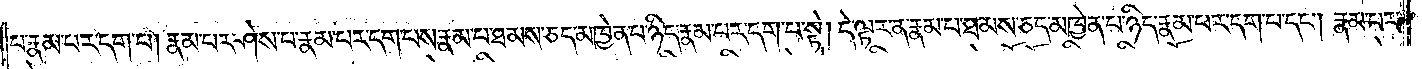པ་རྣམ་པར་དག་པ། རྣམ་པར་ཤེས་པ་རྣམ་པར་དག་པས་རྣམ་པ་ཐམས་ཅད་མཁྱེན་པ་ཉིད་རྣམ་པར་དག་པ་སྟེ། དེ་ལྟར་ན་རྣམ་པ་ཐམས་ཅད་མཁྱེན་པ་ཉིད་རྣམ་པར་དག་པ་དང༌། རྣམ་པར་
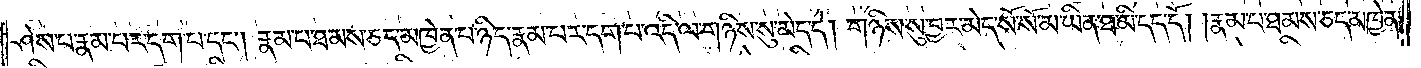ཤེས་པ་རྣམ་པར་དག་པ་དང༌། རྣམ་པ་ཐམས་ཅད་མཁྱེན་པ་ཉིད་རྣམ་པར་དག་པ་འདི་ལ་གཉིས་སུ་མེད་དེ། གཉིས་སུ་བྱར་མེད་སོ་སོ་མ་ཡིན་ཐ་མི་དད་དོ། །རྣམ་པ་ཐམས་ཅད་མཁྱེན་
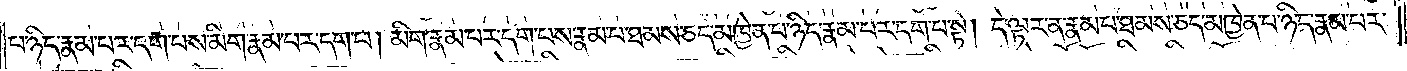པ་ཉིད་རྣམ་པར་དག་པས་མིག་རྣམ་པར་དག་པ། མིག་རྣམ་པར་དག་པས་རྣམ་པ་ཐམས་ཅད་མཁྱེན་པ་ཉིད་རྣམ་པར་དག་པ་སྟེ། དེ་ལྟར་ན་རྣམ་པ་ཐམས་ཅད་མཁྱེན་པ་ཉིད་རྣམ་པར་
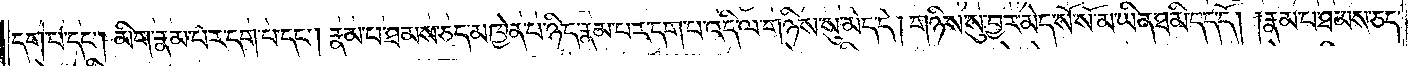དག་པ་དང༌། མིག་རྣམ་པར་དག་པ་དང༌། རྣམ་པ་ཐམས་ཅད་མཁྱེན་པ་ཉིད་རྣམ་པར་དག་པ་འདི་ལ་གཉིས་སུ་མེད་དེ། གཉིས་སུ་བྱར་མེད་སོ་སོ་མ་ཡིན་ཐ་མི་དད་དོ། །རྣམ་པ་ཐམས་ཅད་
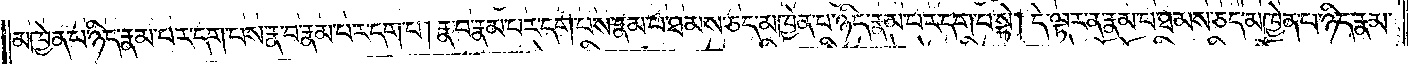མཁྱེན་པ་ཉིད་རྣམ་པར་དག་པས་རྣ་བ་རྣམ་པར་དག་པ། རྣ་བ་རྣམ་པར་དག་པས་རྣམ་པ་ཐམས་ཅད་མཁྱེན་པ་ཉིད་རྣམ་པར་དག་པ་སྟེ། དེ་ལྟར་ན་རྣམ་པ་ཐམས་ཅད་མཁྱེན་པ་ཉིད་རྣམ་
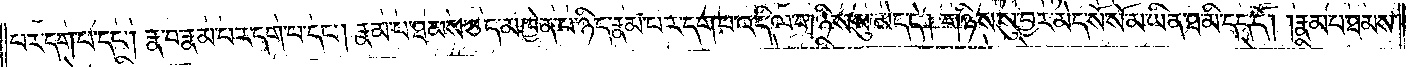པར་དག་པ་དང༌། རྣ་བ་རྣམ་པར་དག་པ་དང༌། རྣམ་པ་ཐམས་ཅད་མཁྱེན་པ་ཉིད་རྣམ་པར་དག་པ་འདི་ལ་གཉིས་སུ་མེད་དེ། གཉིས་སུ་བྱར་མེད་སོ་སོ་མ་ཡིན་ཐ་མི་དད་དོ། །རྣམ་པ་ཐམས་
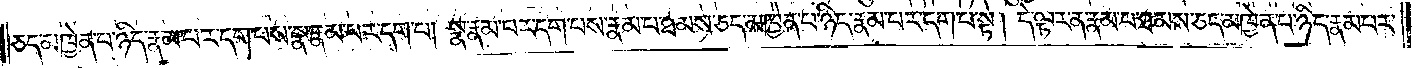ཅད་མཁྱེན་པ་ཉིད་རྣམ་པར་དག་པས་སྣ་རྣམ་པར་དག་པ། སྣ་རྣམ་པར་དག་པས་རྣམ་པ་ཐམས་ཅད་མཁྱེན་པ་ཉིད་རྣམ་པར་དག་པ་སྟེ། དེ་ལྟར་ན་རྣམ་པ་ཐམས་ཅད་མཁྱེན་པ་ཉིད་རྣམ་པར་
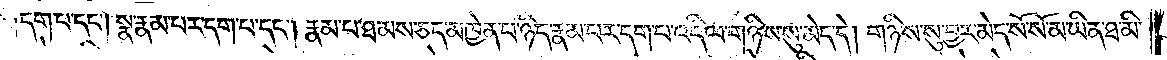དག་པ་དང༌། སྣ་རྣམ་པར་དག་པ་དང༌། རྣམ་པ་ཐམས་ཅད་མཁྱེན་པ་ཉིད་རྣམ་པར་དག་པ་འདི་ལ་གཉིས་སུ་མེད་དེ། གཉིས་སུ་བྱར་མེད་སོ་སོ་མ་ཡིན་ཐ་མི་
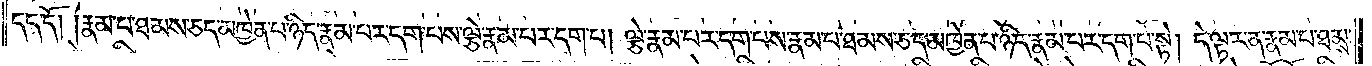དད་དོ། །རྣམ་པ་ཐམས་ཅད་མཁྱེན་པ་ཉིད་རྣམ་པར་དག་པས་ལྕེ་རྣམ་པར་དག་པ། ལྕེ་རྣམ་པར་དག་པས་རྣམ་པ་ཐམས་ཅད་མཁྱེན་པ་ཉིད་རྣམ་པར་དག་པ་སྟེ། དེ་ལྟར་ན་རྣམ་པ་ཐམས་
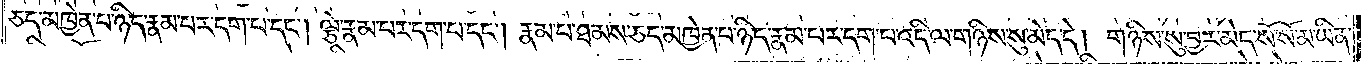ཅད་མཁྱེན་པ་ཉིད་རྣམ་པར་དག་པ་དང༌། ལྕེ་རྣམ་པར་དག་པ་དང༌། རྣམ་པ་ཐམས་ཅད་མཁྱེན་པ་ཉིད་རྣམ་པར་དག་པ་འདི་ལ་གཉིས་སུ་མེད་དེ། གཉིས་སུ་བྱར་མེད་སོ་སོ་མ་ཡིན་
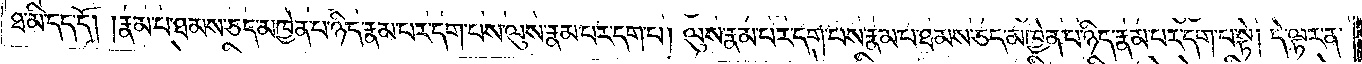ཐ་མི་དད་དོ། །རྣམ་པ་ཐམས་ཅད་མཁྱེན་པ་ཉིད་རྣམ་པར་དག་པས་ལུས་རྣམ་པར་དག་པ། ལུས་རྣམ་པར་དག་པས་རྣམ་པ་ཐམས་ཅད་མཁྱེན་པ་ཉིད་རྣམ་པར་དག་པ་སྟེ། དེ་ལྟར་ན་
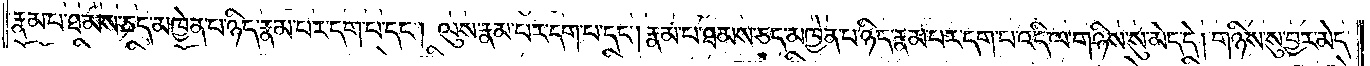རྣམ་པ་ཐམས་ཅད་མཁྱེན་པ་ཉིད་རྣམ་པར་དག་པ་དང༌། ལུས་རྣམ་པར་དག་པ་དང༌། རྣམ་པ་ཐམས་ཅད་མཁྱེན་པ་ཉིད་རྣམ་པར་དག་པ་འདི་ལ་གཉིས་སུ་མེད་དེ། གཉིས་སུ་བྱར་མེད་
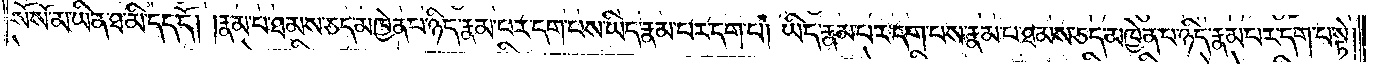སོ་སོ་མ་ཡིན་ཐ་མི་དད་དོ། །རྣམ་པ་ཐམས་ཅད་མཁྱེན་པ་ཉིད་རྣམ་པར་དག་པས་ཡིད་རྣམ་པར་དག་པ། ཡིད་རྣམ་པར་དག་པས་རྣམ་པ་ཐམས་ཅད་མཁྱེན་པ་ཉིད་རྣམ་པར་དག་པ་སྟེ།
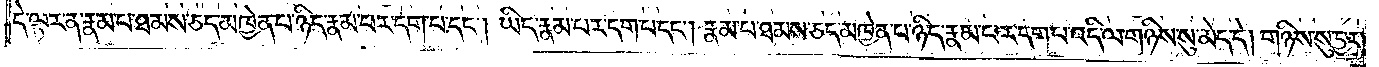དེ་ལྟར་ན་རྣམ་པ་ཐམས་ཅད་མཁྱེན་པ་ཉིད་རྣམ་པར་དག་པ་དང༌། ཡིད་རྣམ་པར་དག་པ་དང༌། རྣམ་པ་ཐམས་ཅད་མཁྱེན་པ་ཉིད་རྣམ་པར་དག་པ་འདི་ལ་གཉིས་སུ་མེད་དེ། གཉིས་སུ་བྱར་
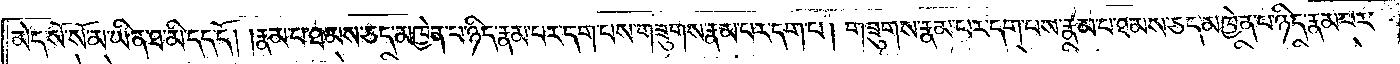མེད་སོ་སོ་མ་ཡིན་ཐ་མི་དད་དོ། །རྣམ་པ་ཐམས་ཅད་མཁྱེན་པ་ཉིད་རྣམ་པར་དག་པས་གཟུགས་རྣམ་པར་དག་པ། གཟུགས་རྣམ་པར་དག་པས་རྣམ་པ་ཐམས་ཅད་མཁྱེན་པ་ཉིད་རྣམ་པར་
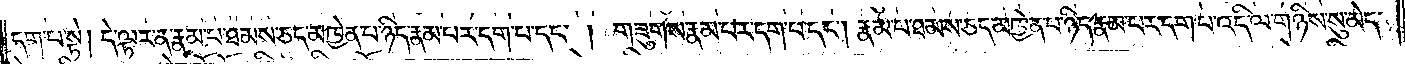དག་པ་སྟེ། དེ་ལྟར་ན་རྣམ་པ་ཐམས་ཅད་མཁྱེན་པ་ཉིད་རྣམ་པར་དག་པ་དང༌། གཟུགས་རྣམ་པར་དག་པ་དང༌། རྣམ་པ་ཐམས་ཅད་མཁྱེན་པ་ཉིད་རྣམ་པར་དག་པ་འདི་ལ་གཉིས་སུ་མེད་
